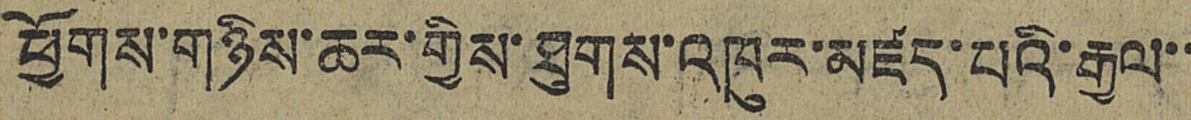ཕྱོགས་གཉིས་ཆར་གྱིས་ཐུགས་འཁུར་མཛད་པའི་རྒྱལ་་
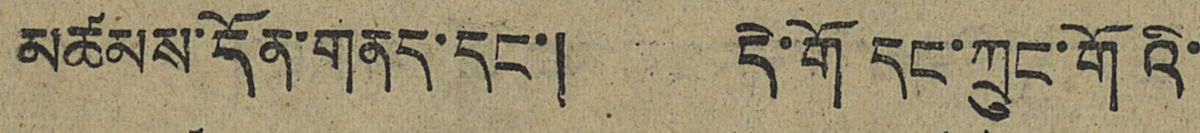མཚམས་དོན་གནད་དང་། དེ་གོ དང་ཀྲུང་གོའི་
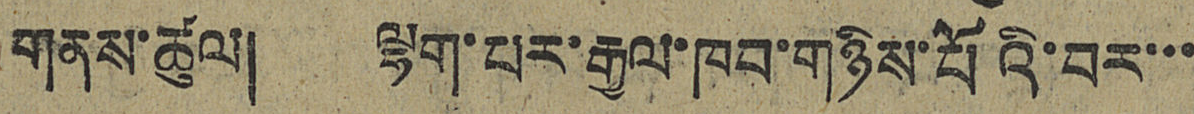གནས་ཚུལ། ལྷག་པར་རྒྱལ་ཁབ་གཉིས་པོའི་བར་་་
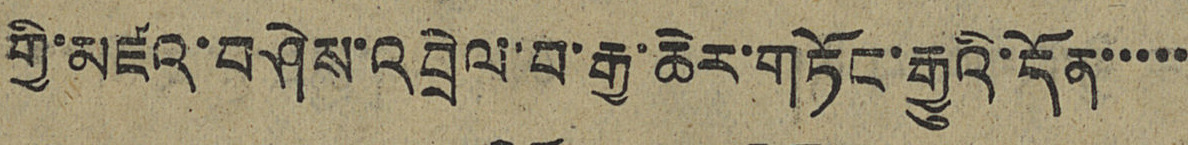གྱི་མཛའ་བཤེས་འབྲེལ་བ་རྒྱ་ཆེར་གཏོང་རྒྱུའི་དོན་་་་་
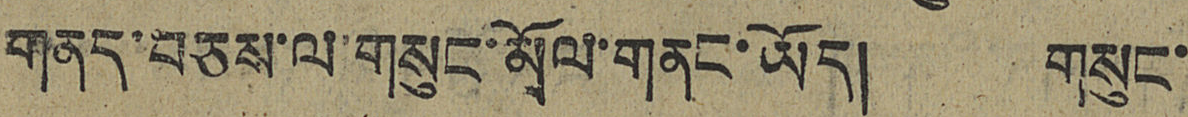གནད་བཅས་ལ་གསུང་མོལ་གནང་ཡོད། གསུང་
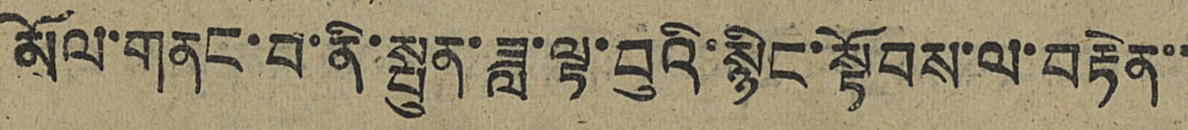མོལ་གནང་བ་ནི་སྤུན་ཟླ་ལྟ་བུའི་སྙིང་སྟོབས་ལ་བརྟེན་་
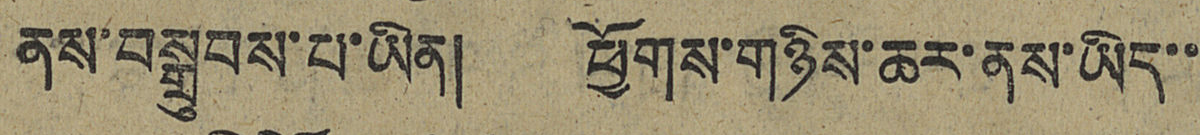ནས་བསྒྲུབས་པ་ཡིན། ཕྱོགས་གཉིས་ཆར་ནས་ཡིད་་
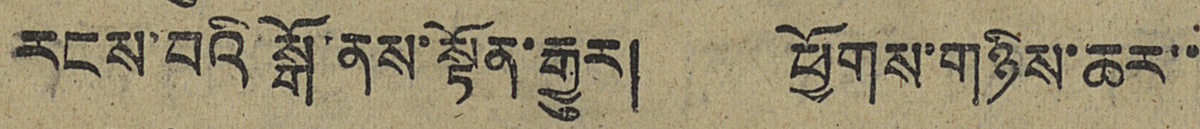རངས་བའི སྒོ་ནས་སྟོན་རྒྱུར། ཕྱོགས་གཉིས་ཆར་་
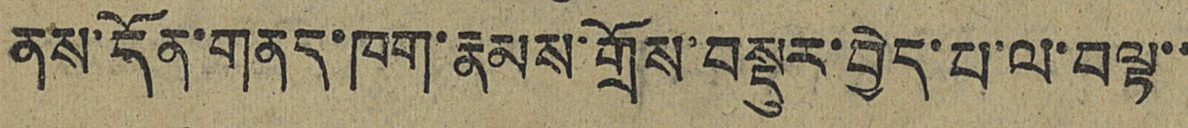ནས་དོན་གནད་ཁག་རྣམས་གྲོས་བསྡུར་བྱེད་པ་ལ་བལྟ་་
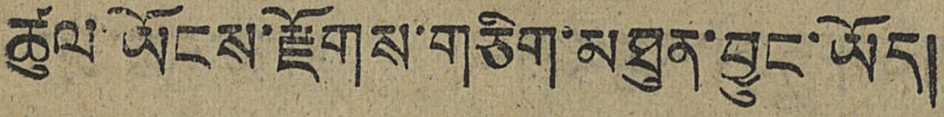ཚུལ་ཡོངས་རྫོགས་གཅིག་མཐུན་བྱུང་ཡོད།
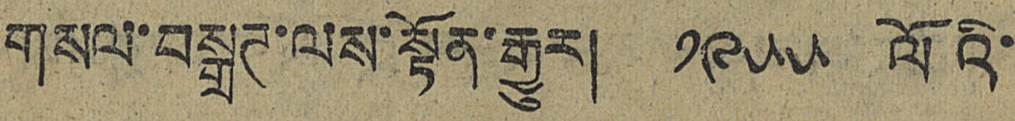གསལ་བསྒྲཊ་ལས་སྟོན་རྒྱུར། ༡༩༥༥ ལོའི་
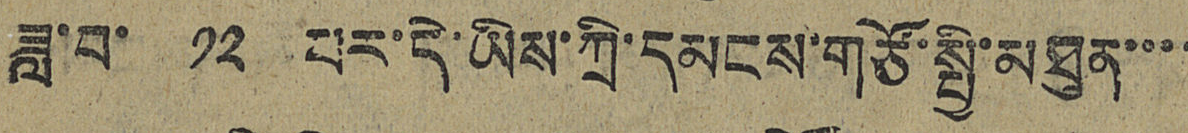ཟླ་བ་ ༡༢ པར་དེ་ཡིས་ཀྲི་དམངས་གཙོ་སྤྱི་མཐུན་་་་
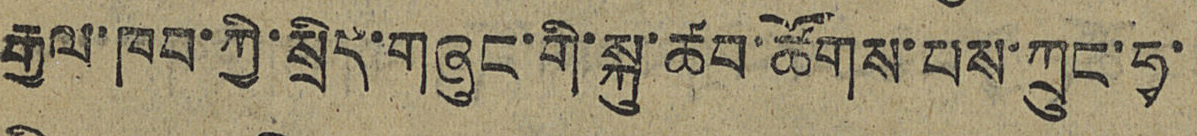རྒྱལ་ཁབ་ཀྱི་སྲིད་གཞུང་གི་སྐུ་ཚབ་ཚོགས་པས་ཀྲུང་ཧྭ་
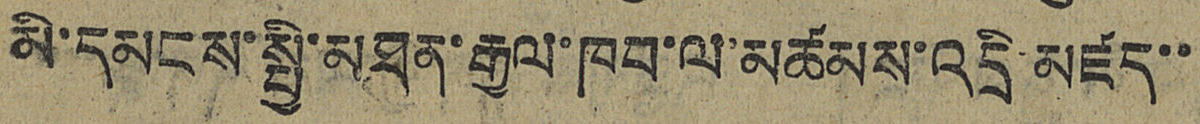མི་དམངས་སྤྱི་མཐུན་རྒྱལ་ཁབ་ལ་མཚམས་འདྲི་མཛད་་
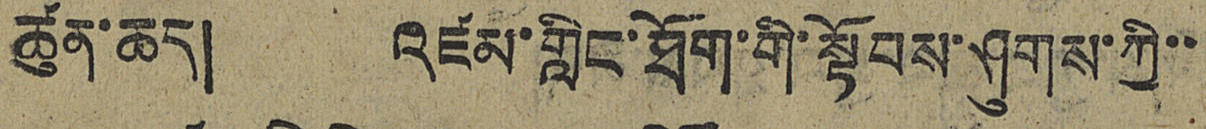ཚུན་ཆད། འཛམ་གླིང་ཐོག་གི་སྟོབས་ཤུགས་ཀྱི་་
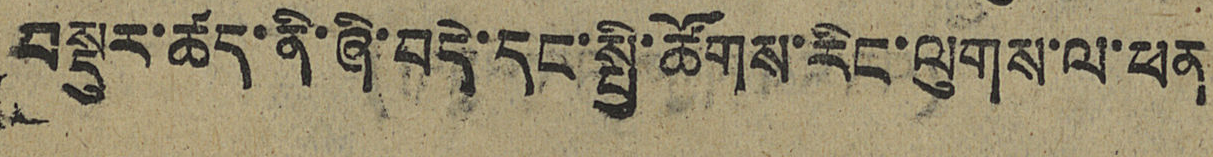བསྡུར་ཚད་ནི་ཞི་བདེ་དང་སྤྱི་ཚོགས་རིང་ལུགས་ལ་ཕན
